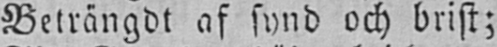Beträngdt af synd och brist;
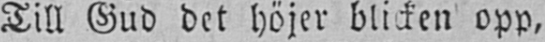Till Gud det höjer blicken opp,
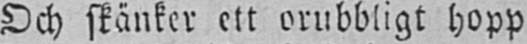Och skänker ett orubbligt hopp
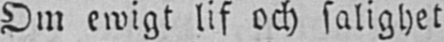Om ewigt lif och salighet
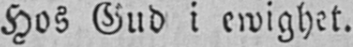Hos Gud i ewighet.
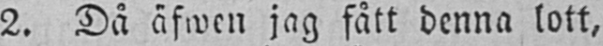2. Då äfwen jag fått denna lott,
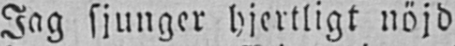Jag sjunger hjertligt nöjd
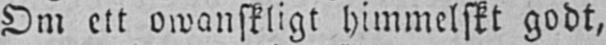Om ett owanskligt himmelskt godt,
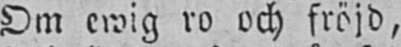Om ewig ro och fröjd,
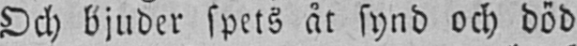Och bjuder spets åt synd och död
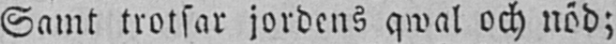Samt trotsar jordens qwal och nöd;
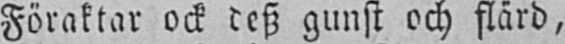Föraktar ock desz gunst och flärd,
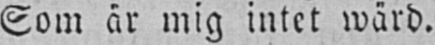Som är mig intet wärd.
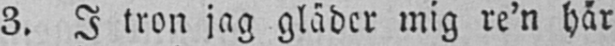3. I tron jag gläder mig re'n här
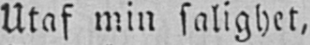Utaf min salighet,
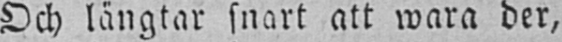Och längtar snart att wara der,
